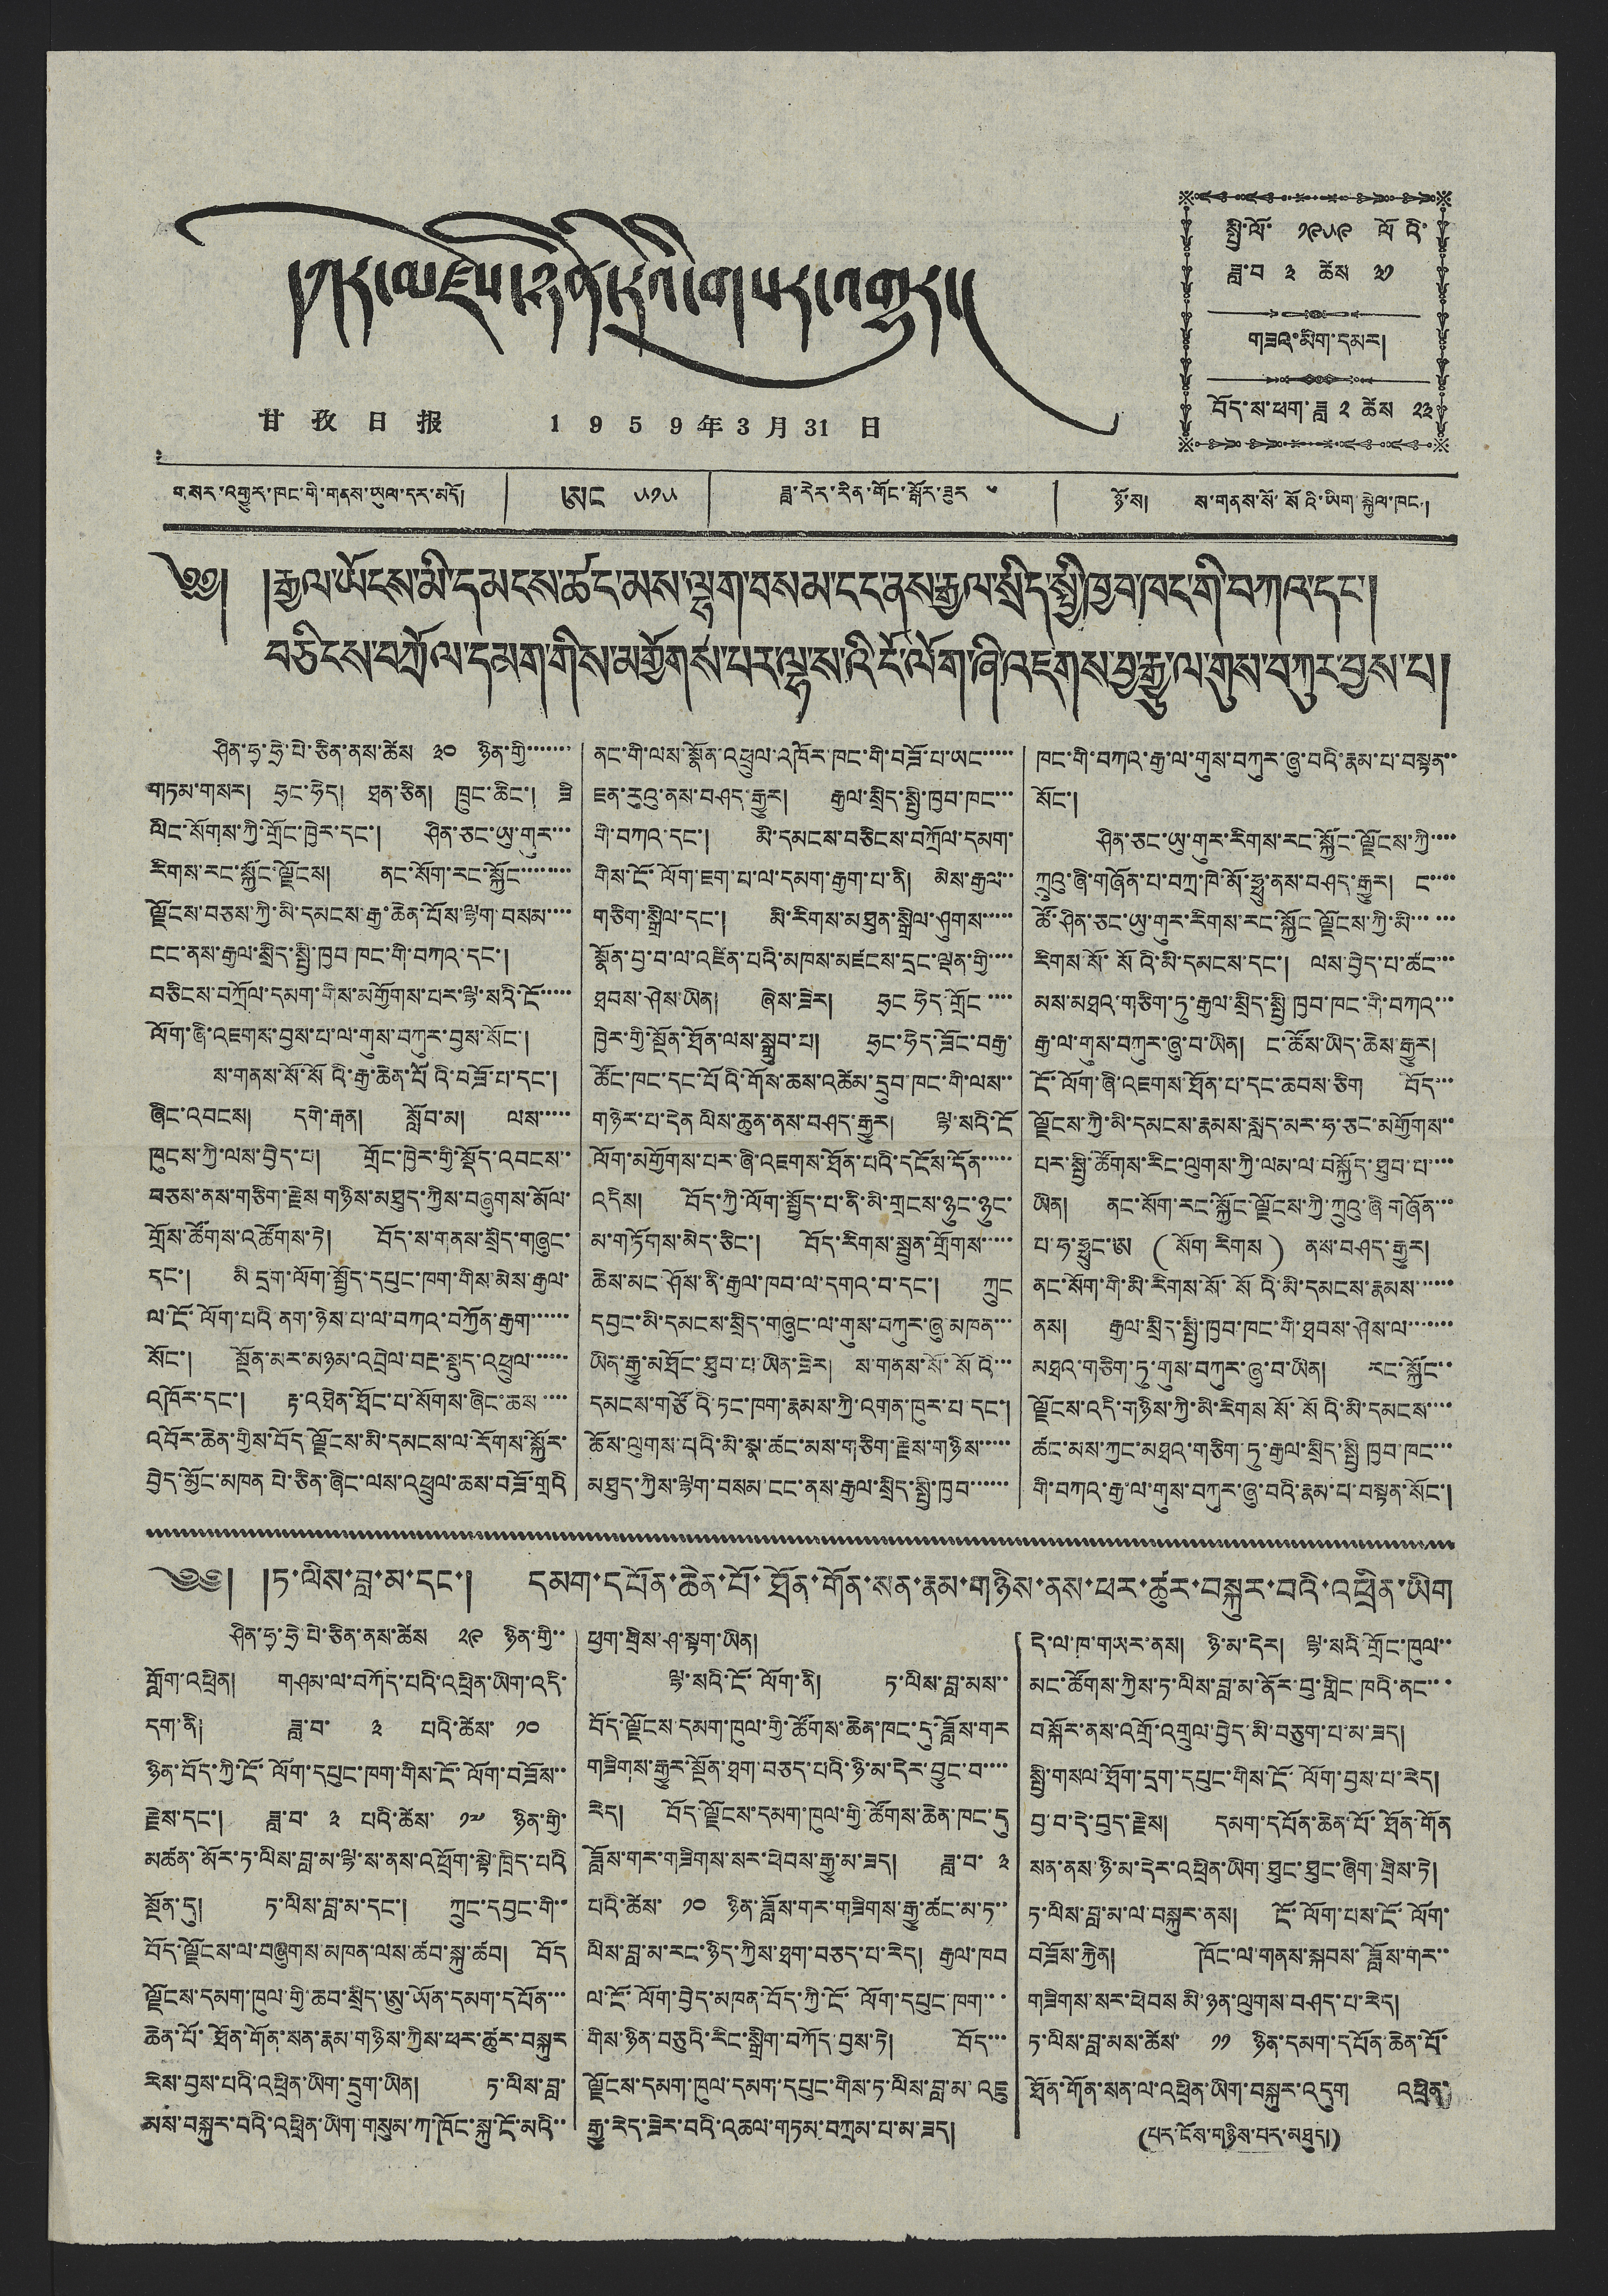དཀར་མཛེས་ཉིན་རེའི་གསར་འགྱུར།
甘 孜 日 报 1 9 5 9 年 3 月 31 日
སྤྱི་ལོ་ ༡༩༥༩ ལོའི་
ཟླ་བ་ ༣ ཚེས ༣༡
གཟའ་མིག་དམར།
བོད་ས་ཕག་ཟླ ༢ ཚེས ༢༣
༄༅། །རྒྱལ་ཡོངས་མི་དམངས་ཚང་མས་ལྷག་བསམ་ངང་ནས་རྒྱལ་སྲིད་སྤྱི་ཁྱབ་ཁང་གི་བཀའ་དང་།
ཅིངས་བཀྲོལ་དམག་གིས་མགྱོགས་པར་ལྷ་སའི་ངོ་ལོག་ཞི་འཇགས་བྱ་རྒྱུ་ལ་གུས་བཀུར་བྱས་པ།
ཤིན་ཧྭ་ཧྲེ་པེ་ཅིན་ནས་ཚེས ༣༠ ཉིན་གྱི་་་་་་་
གཏམ་གསར། ཧྲང་ཧེད། ཐན་ཅིན། ཁྲུང་ཆིང་། ཟི
ལིང་སོགས་ཀྱི་གྲོང་ཁྱེར་དང་། ཤིན་ཅང་ཡུ་གུར་་་
རིགས་རང་སྐྱོང་ལྗོངས། ནང་སོགས་རང་སྐྱོང་་་་་་་་
ལྗོངས་བཅས་ཀྱི་མི་དམངས་རྒྱ་ཆེན་པོས་ལྷག་བསམ་་་་
ངང་ནས་རྒྱལ་སྲིད་སྤྱི་ཁྱབ་ཁང་གི་བཀའ་དང་།
བཅིངས་བཀྲོལ་དམག་གིས་མགྱོགས་པར་ལྷ་སའི་ངོ་་་་་
ལོག་ཞི་འཇགས་བྱས་པ་ལ་གུས་བཀུར་བྱས་སོང་།
ས་གནས་སོ་སོའི་རྒྱ་ཆེན་པོའི་བཟོ་པ་དང་།
ཞིང་འབངས། དགེ་རྒན། སློབ་མ། ལས་་་་་
ཁུངས་ཀྱི་ལས་བྱེད་པ། གྲོང་ཁྱེར་གྱི་སྡོད་འབངས་་
བཅས་ནས་གཅིག་རྗེས གཉིས་མཐུད་ཀྱིས་བཞུགས་མོལ་
གྲོས་ཚོགས་འཚོགས་ཏེ། བོད་ས་གནས་སྲིད་གཞུང་
དང་། མི དྲག་ལོག་སྤྱོད་དཔུང་ཁག་གིས་མེས་རྒྱལ་
ལ་ངོ་ལོག་པའི ནག་ཉེས་པ་ལ་བཀའ་བཀྱོན་རྒྱག་་་་་་
སོང་། སྔོན་མར་མཉམ་འབྲེལ་བརྔ་སྡུད་འཕྲུལ་་་་་་
འཁོར་དང་། རྟ་འཐེན་ཐོང་པ་སོགས་ཞིང་ཆས་་་་
འབོར་ཆེན་གྱིས་བོད ལྗོངས་མི་དམངས་ལ་རོགས་སྐྱོར་
བྱེད་མྱོང་མཁན པེ་ཅིན་ཞིང་ལས་འཕྲུལ་ཆས་བཟོ་གྲའི
ནང་གི་ལས་སྣོན་འཕྲུལ་འཁོར་ཁང་གི་བཟོ་པ་ཡང་་་་་
ཇན་རུའུ་ནས་བཤད་རྒྱུར། རྒྱལ་སྲིད་སྤྱི་ཁྱབ་ཁང་་་
གི་བཀའ་དང་། མི་དམངས་བཅིངས་བཀྲོལ་དམག་
གིས་ངོ་ལོག་ཇག་པ་ལ་དམག་རྒྱག་པ་ནི། མེས་རྒྱལ་་
གཅིག་སྒྲིལ་དང་། མི་རིགས་མཐུན་སྒྲིལ་ཤུགས་་་་་
སྣོན་བྱ་བ་ལ་འཛིན་པའི་མཁས་མཛངས་དྲང་ལྡན་གྱི་་་་
ཐབས་ཤེས་ཡིན། ཞེས་ཟེར། ཧྲང ཧེད་གྲོང་་་་
ཁྱེར་གྱི་སྔོན་ཐོན་ལས་སྒྲུབ་པ། ཧྲང་ཧེད་ཟོང་བརྒྱ་
ཚོང་ཁང་དང་པོའི་གོས་ཆས་འཚེམ་དྲུབ་ཁང་གི་ལས་་
གཉེར་པ་དེན ལིས་ཆུན་ནས་བཤད་རྒྱུར། ལྷ་སའི་ངོ
ལོག་མགྱོགས་པར་ཞི་འཇགས་ཐོན་པའི་དངོས་དོན་་་་་
འདིས། བོད་ཀྱི་ལོག་སྤྱོད་པ་ནི་མི་གྲངས་ཉུང་ཉུང་
མ་གཏོགས་མེད་ཅིང་། བོད་རིགས་སྤུན་གྲོགས་་་་་
ཆེས་མང་ཤོས་ནི་རྒྱལ་ཁབ་ལ་དགའ་བ་དང་། ཀྲུང
དབྱང་མི་དམངས་སྲིད་གཞུང་ལ་གུས་བཀུར་ཞུ མཁན་་་
ཡིན་རྒྱུ་མཐོང་ཐུབ་པ་ཡིན་ཟེར། ས་གནས་སོ་སོའི་་་
དམངས་གཙོའི་ཏང་ཁག་རྣམས་ཀྱི་འགན་ཁུར་པ་དང་།
ཆོས་ལུགས་པའི་མི་སྣ་ཚང་མས་གཅིག་རྗེས་གཉིས་་་་་
མཐུད་ཀྱིས་ལྷག་བསམ་ངང་ནས་རྒྱལ་སྲིད་སྤྱི་ཁྱབ་་་་་་
ཁང་གི་བཀའ་རྒྱ་ལ་གུས་བཀུར་ཞུ་བའི་རྣམ་པ་བསྟན་་
སོང་།
ཤིན་ཅང་ཡུ་གུར་རིགས་རང་སྐྱོང་ལྗོངས་ཀྱི་་་་
ཀྲུའུ་ཞི་གཞོན་པ་བཀྲ་ཁེ་མོ་ཧྥུ་ནས་བཤད་རྒྱུར། ང་་་་
ཚོ་ཤིན་ཅང་ཡུ་གུར་རིགས་རང་སྐྱོང ལྗོངས་ཀྱི་མི་་་་་་
རིགས་སོ་སོའི་མི་དམངས་དང་། ལས་བྱེད་པ་ཚང་་་
མས་མཐའ་གཅིག་ཏུ་རྒྱལ་སྲིད་སྤྱི་ཁྱབ་ཁང་གི་བཀའ་་་
རྒྱ་ལ་གུས་བཀུར་ཞུ་བ་ཡིན། ང་ཚོས་ཡིད་ཆེས་རྒྱུར།
ངོ་ལོག་ཞི་འཇགས་ཐོན་པ་དང་ཆབས་ཅིག བོད་་་
ལྗོངས་ཀྱི་མི་དམངས་རྣམས་སླད་མར་ཧ་ཅང་མགྱོགས་་
པར་སྤྱི་ཚོགས་རིང་ལུགས་ཀྱི་ལམ་ལ་བསྐྱོད་ཐུབ་པ་་་་
ཡིན། ནང་སོག་རང་སྐྱོང་ལྗོངས་ཀྱི་ཀྲུའུ་ཞི གཞོན་་་
པ་ཧ་ཧྥུང་ཨ ( སོག རིགས་ ) ནས་བཤད་རྒྱུར།
ནང་སོག་གི་མི་རིགས་སོ་སོའི་མི་དམངས་རྣམས་་་་་་
ནས། རྒྱལ་སྲིད་སྤྱི་ཁྱབ་ཁང་གི་ཐབས་ཤེས་ལ་་་་་་་
མཐའ་གཅིག་ཏུ་གུས་བཀུར་ཞུ་བ་ཡིན། རང་སྐྱོང་་
ལྗོངས་འདི་གཉིས་ཀྱི་མི་རིགས སོ་སོའི་མི་དམངས་་་་
ཚང་མས་ཀྱང་མཐའ་གཅིག་ཏུ་རྒྱལ་སྲིད་སྤྱི ཁྱབ་ཁང་་་
གི་བཀའ་རྒྱ་ལ་གུས་བཀུར་ཞུ་བའི་རྣམ་པ་བསྟན་སོང་།
༄༅། །ཏ་ལིས་བླ་མ་དང་། དམག་དཔོན་ཆེན་པོ་ཐོན་གོན་སན་རྣམ་གཉིས་ནས་ཕར་ཚུར་བསྐུར་བའི་འཕྲིན་ཡིག
ཤིན་ཧྭ་ཧྲེ་པེ་ཅིན་ནས་ཚེས ༢༩ ཉིན་གྱི་་
གློག་འཕྲིན། གཤམ་ལ་བཀོད་པའི་འཕྲིན་ཡིག་འདི་
དག་ནི། ཟླ་བ་ ༣ པའི་ཚེས་ ༡༠
ཉིན་བོད་ཀྱི་ལོག་དཔུང་ཁག་གིས་ངོ་ལོག་བཟོས་་
རྗེས་དང་། ཟླ་བ་ ༣ པའི་ཚེས་ ༡༧ ཉིན་གྱི་
མཚན་མོར་ཏ་ལིས་བླ་མ་ལྷ་ས་ནས་འཕྲོག་སྟེ་ཁྲིད་པའི
སྔོན་དུ། ཏ་ལིས་བླ་མ་དང་། ཀྲུང་དབྱང་གི་་
བོད་ལྗོངས་ལ་བཞུགས་མཁན་ལས་ཚབ་སྐུ་ཚབ། བོད
ལྗོངས་དམག་ཁུལ་གྱི་ཆབ་སྲིད་ཨུ་ཡོན་དམག་དཔོན་་་
ཆེན་པོ་ཐོན་གོན་སན་རྣམ་གཉིས་ཀྱིས་ཕར་ཚུར་བསྐུར
རེས་བྱས་པའི་འཕྲིན་ཡིག་དྲུག་ཡིན། ཏ་ལིས་བླ་
མས་བསྐུར་བའི་འཕྲིན་ཡིག་གསུམ་ཀ་ཁོང་སྐུ་ངོ་མའི་་
ཕྱག་བྲིས་ཤ་སྟག་ཡིན།
ལྷ་སའི་ངོ་ལོག་ནི། ཏ་ལིས་བླ་མས་་
བོད་ལྗོངས་དམག་ཁུལ་གྱི་ཚོགས་ཆེན་ཁང་དུ་ཟློས་གར
གཟིགས་རྒྱུར་སྔོན་ཐག་བཅད་པའི་ཉི་མ་དེར་བྱུང་བ་་་་
རེད། བོད་ལྗོངས་དམག་ཁུལ་གྱི་ཚོགས་ཆེན་ཁང་དུ
ཟློས་གར་གཟིགས་སར་ཕེབས་རྒྱུ་མ་ཟད། ཟླ་བ་ ༣
པའི་ཚེས་ ༡༠ ཉིན་ཟློས་གར་གཟིགས་རྒྱུ་ཚང་མ་ཏ་་
ལིས་བླ་མ་རང་ཉིད་ཀྱིས་ཐག་བཅད་པ་རེད། རྒྱལ་ཁབ
ལ་ངོ་ལོག་བྱེད་མཁན་བོད་ཀྱི་ངོ་ལོག་དཔུང་ཁག་་་
གིས་ཉིན་བཅུའི་རིང་སྒྲིག་བཀོད་བྱས་ཏེ། བོད་་་
ལྗོངས་དམག་ཁུལ་དམག་དཔུང་གིས་ཏ་ལིས་བླ་མ་འཇུ
རྒྱུ་རེད་ཟེར་བའི་འཆལ་གཏམ་བཀྲམ་པ་མ་ཟད།
དེ་ལ་ཁ་གཡར་ནས། ཉི་མ་དེར། ལྷ་སའི་གྲོང་ཁུལ་་
མང་ཚོགས་ཀྱིས་ཏ་ལིས་བླ་མ་ནོར་བུ་གླིང་ཁའི་ནང་་་
བསྐོར་ནས་འགྲོ་འགྲུལ་བྱེད་མི་བཅུག་པ་མ་ཟད།
སྤྱི་གསལ་ཐོག་དྲག་དཔུང་གིས་ངོ་ལོག་བྱས་པ་རེད།
བྱ་བ་དེ་བུད་རྗེས། དམག་དབོན་ཆེན་པོ་ཐོན་གོན
སན་ནས་ཉི་མ་དེར་འཕྲིན་ཡིག་ཐུང་ཐུང་ཞིག་བྲིས་ཏེ།
ཏ་ལིས་བླ་མ་ལ་བསྐུར་ནས། ངོ་ལོག་པས་ངོ་ལོག་
བཟོས་རྐྱེན། ཁོང་ལ་གནས་སྐབས་ཟློས་གར་་
གཟིགས་སར་ཕེབས་མི་ཉན་ལུགས་བཤད་པ་རེད།
ཏ་ལིས་བླ་མས་ཚེས་ ༡༡ ཉིན་དམག་དཔོན་ཆེན་པོ་
ཐོན་གོན་སན་ལ་འཕྲིན་ཡིག་བསྐུར་འདུག འཕྲིན་
(པར་ངོས་གཉིས་པར་མཐུད།)
